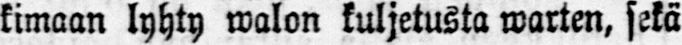kimaan lyhty walon kuljetusta warten, sekä
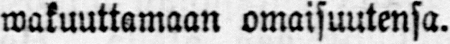wakuuttamaan omaisuutensa.
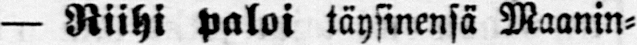— Riihi paloi täysinensä Maanin-
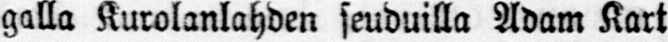galla Kurolanlahden seuduilla Adam Kart-
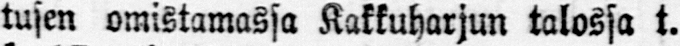tusen omistamassa Kakkuharjun talossa t.
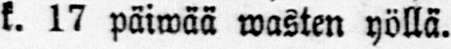k. 17 päiwää wasten yöllä.
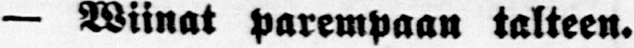— Wiinat parempaan talteen.
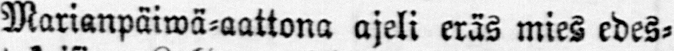Marianpäiwä-aattona ajeli eräs mies edes-
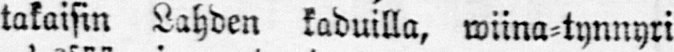takaisin Lahden kaduilla, wiina-tynnyri
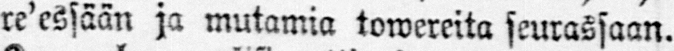re'essaän ja mutamia towereita seurassaan.
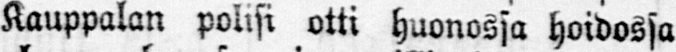Kauppalan polisi otti huonossa hoidossa
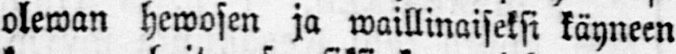olewan hewosen ja waillinaiseksi käyneen
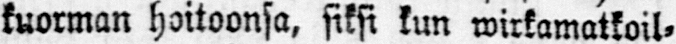kuorman hoitoonsa, siksi kun wirkamatkoil-
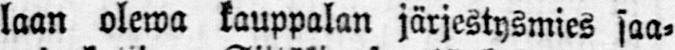laan olewa kauppalan järjestysmies saa-
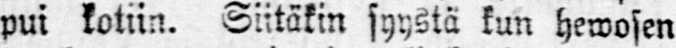pui kotiin. Siitäkin syystä kun hewosen
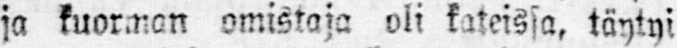ja kuorman omistaja oli kateissa, täytyi
